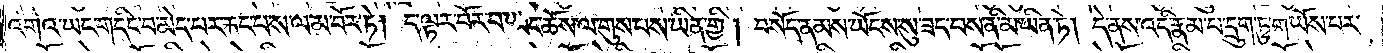འགའ་ཡང་གདིང་བ་མེད་པར་རྐང་པ་ས་ལ་མ་བོར་ཏེ། ད་ལྟར་བོར་བ་ཡང་ཆོས་ལ་གུས་པས་ཡིན་གྱི། བསོད་ནམས་ཡོངས་སུ་ཟད་པས་ནི་མ་ཡིན་ཏེ། དེ་ནས་འདི་རྣམ་པ་དྲུག་ཏུ་གཡོས་པར་
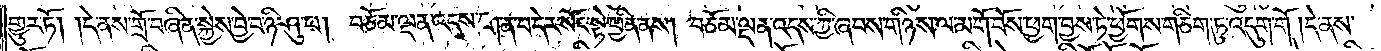གྱུར་ཏོ། །དེ་ནས་གྲོ་བཞིན་སྐྱེས་བྱེ་བ་ཉི་ཤུ་པ། བཅོམ་ལྡན་འདས་ག་ན་བདེར་སོང་སྟེ་ཕྱིན་ནས། བཅོམ་ལྡན་འདས་ཀྱི་ཞབས་གཉིས་ལ་མགོ་བོས་ཕྱག་བྱས་ཏེ་ཕྱོགས་གཅིག་ཏུ་འདུག་གོ །དེ་ནས་
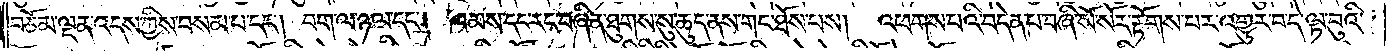བཅོམ་ལྡན་འདས་ཀྱིས་བསམ་པ་དང༌། བག་ལ་ཉལ་དང༌། ཁམས་དང་རང་བཞིན་ཐུགས་སུ་ཆུད་ནས་གང་ཐོས་པས། འཕགས་པའི་བདེན་པ་བཞི་སོ་སོར་རྟོགས་པར་འགྱུར་བ་དེ་ལྟ་བུའི་
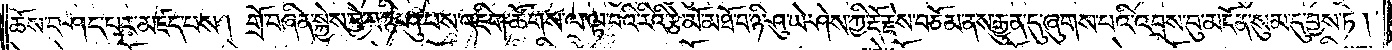ཆོས་བཤད་པར་མཛད་པས། གྲོ་བཞིན་སྐྱེས་བྱེ་བ་ཉི་ཤུ་པས་འཇིག་ཚོགས་ལ་ལྟ་བའི་རིའི་རྩེ་མོ་མཐོ་བ་ཉི་ཤུ་ཡེ་ཤེས་ཀྱི་རྡོ་རྗེས་བཅོམ་ནས་རྒྱུན་དུ་ཞུགས་པའི་འབྲས་བུ་མངོན་སུམ་དུ་བྱས་ཏེ།
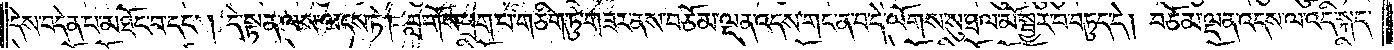དེས་བདེན་པ་མཐོང་བ་དང༌། དེ་སྟན་ལས་ལངས་ཏེ། བླ་གོས་ཕྲག་པ་གཅིག་ཏུ་གཟར་ནས་བཅོམ་ལྡན་འདས་གང་ན་བ་དེ་ལོགས་སུ་ཐལ་མོ་སྦྱར་བ་བཏུད་དེ། བཅོམ་ལྡན་འདས་ལ་འདི་སྐད་
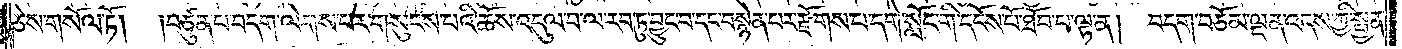ཅེས་གསོལ་ཏོ།   །བཙུན་པ་བདག་ལེགས་པར་གསུངས་པའི་ཆོས་འདུལ་བ་ལ་རབ་ཏུ་བྱུང་བ་དང་བསྙེན་པར་རྫོགས་པ་དགེ་སློང་གི་དངོས་པོ་ཐོབ་པ་ལྟ་ན། བདག་བཅོམ་ལྡན་འདས་ཀྱི་སྤྱན་
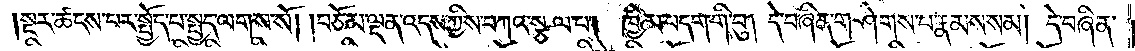སྔར་ཚངས་པར་སྤྱོད་པ་སྤྱད་ལགས་སོ། །བཅོམ་ལྡན་འདས་ཀྱིས་བཀའ་སྩལ་པ། ཁྱིམ་བདག་གི་བུ། དེ་བཞིན་གཤེགས་པ་རྣམས་སམ། དེ་བཞིན་
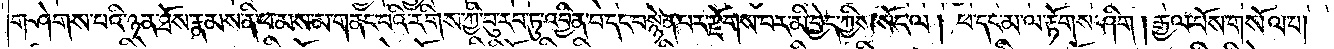གཤེགས་པའི་ཉན་ཐོས་རྣམས་ནི་ཕ་མས་མ་གནང་བའི་རིགས་ཀྱི་བུ་རབ་ཏུ་འབྱིན་པ་དང་བསྙེན་པར་རྫོགས་པར་མི་བྱེད་ཀྱིས་སོང་ལ། ཕ་དང་མ་ལ་རྟོགས་ཤིག །རྒྱལ་པོས་གསོལ་པ།
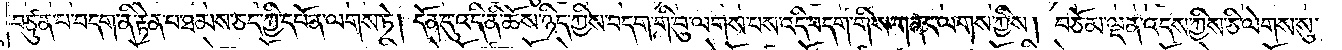བཙུན་པ་བདག་ནི་རྟེན་པ་ཐམས་ཅད་ཀྱི་དཔོན་ལགས་ཏེ། དོན་དུ་འདི་ནི་ཆོས་ཉིད་ཀྱིས་བདག་གི་བུ་ལགས་པས་འདི་བདག་གིས་གནང་ལགས་ཀྱིས། བཅོམ་ལྡན་འདས་ཀྱིས་ཅི་ལེགས་སུ་
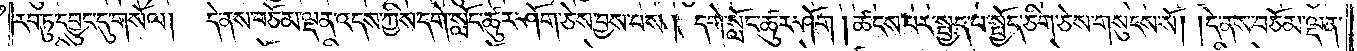རབ་ཏུ་དབྱུང་དུ་གསོལ། དེ་ནས་བཅོམ་ལྡན་འདས་ཀྱིས་དགེ་སློང་ཚུར་ཤོག་ཅེས་བྱས་པས། དགེ་སློང་ཚུར་ཤོག །ཚངས་པར་སྤྱད་པ་སྤྱོད་ཅིག་ཅེས་གསུངས་སོ། །དེ་ནས་བཅོམ་ལྡན་
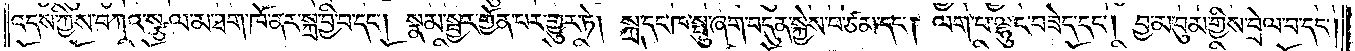འདས་ཀྱིས་བཀའ་སྩལ་མ་ཐག་ཁོ་ནར་སྐྲ་བྱི་བ་དང༌། སྣམ་སྦྱར་གྱོན་པར་གྱུར་ཏེ། སྐྲ་དང་ཁ་སྤུ་ཞག་བདུན་སྐྱེས་པ་ཙམ་དང༌། ལག་པ་ལྷུང་བཟེད་དང༌། བྱ་མ་བུམ་གྱིས་བྲེལ་བ་དང༌།
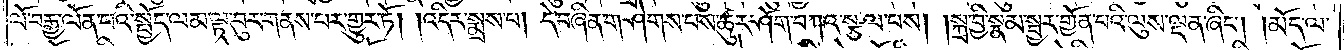ལོ་བརྒྱ་ལོན་པའི་སྤྱོད་ལམ་ལྟ་བུར་གནས་པར་གྱུར་ཏོ། །འདིར་སྨྲས་པ། དེ་བཞིན་གཤེགས་པས་ཚུར་ཤོག་བཀའ་སྩལ་པས། །སྐྲ་བྱི་སྣམ་སྦྱར་གྱོན་པའི་ལུས་ལྡན་ཞིང༌། །མོད་ལ་
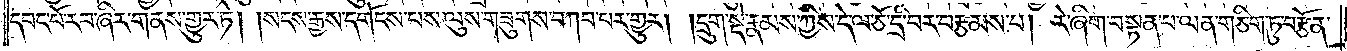དབང་པོ་རབ་ཞིར་གནས་གྱུར་ཏེ། །སངས་རྒྱས་དགོངས་པས་ལུས་གཟུགས་བཀབ་པར་གྱུར། །དྲུག་སྡེ་རྣམས་ཀྱིས་དེ་ལ་ཅོ་དྲི་བར་བརྩམས་པ། རེ་ཞིག་བསྟན་པ་ལན་གཅིག་ཏུ་བརྩོན་
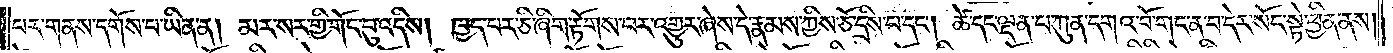པར་གནས་དགོས་པ་ཡིན་ན། མར་སར་གྱི་གོང་བུ་འདིས། ཁྱད་པར་ཅི་ཞིག་རྟོགས་པར་འགྱུར་ཞེས་དེ་རྣམས་ཀྱིས་ཅོ་དྲིས་པ་དང༌། ཚེ་དང་ལྡ་པ་ཀུན་དགའ་བོ་གང་ན་བ་དེར་སོང་སྟེ་ཕྱིན་ནས།
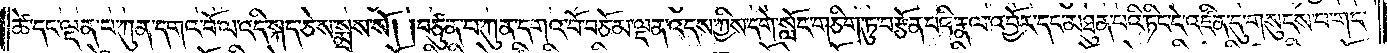ཚེ་དང་ལྡན་པ་ཀུན་དགའ་བོ་ལ་འདི་སྐད་ཅེས་སྨྲས་སོ། །བཙུན་པ་ཀུན་དགའ་བོ་བཅོམ་ལྡན་འདས་ཀྱིས་དགེ་སློང་གཅིག་ཏུ་བརྩོན་པའི་རྣལ་འབྱོར་དང་མཐུན་པའི་ཏིང་ངེ་འཛིན་དུ་གསུངས་པ་གང་
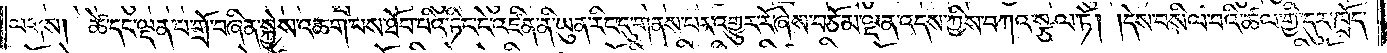ལགས། ཚེ་དང་ལྡན་པ་གྲོ་བཞིན་སྐྱེས་འཆག་པས་ཐོབ་པའི་ཏིང་ངེ་འཛིན་ནི་ཡུན་རིང་དུ་གནས་པར་འགྱུར་རོ་ཞེས་བཅོམ་ལྡན་འདས་ཀྱིས་བཀའ་སྩལ་ཏོ། །དེས་བསིལ་བའི་ཚལ་གྱི་དུར་ཁྲོད་
